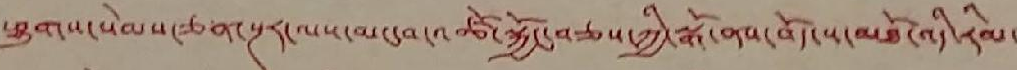ཕྱུགས་སེམས་ཅན་སྔར་ལས་མང་བ་འཚོ་སྐྱོང་བཅས་ཀྱི་སྒོ་ནས་བོད་ས་མཐོ་འདི་རིམ་
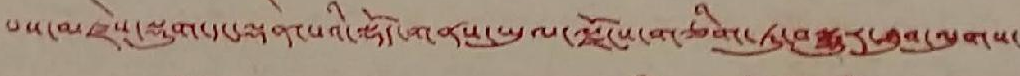པས་མཛེས་སྡུག་དང་ལྡན་པའི་སྡོད་གནས་ཡུལ་ལྗོངས་གཅིག་ཏུ་བསྒྱུར་ཐུབ་ལུགས་
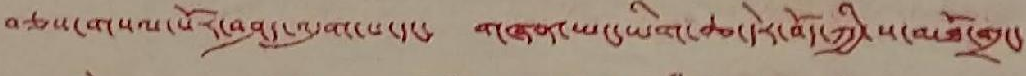བཅས་གསལ་པོར་བཤད་འདུག་པ་དང་ གཞན་ཡང་ཡིག་ཆ་དེར་བོད་ཀྱི་ས་མཐོ་གྲང་
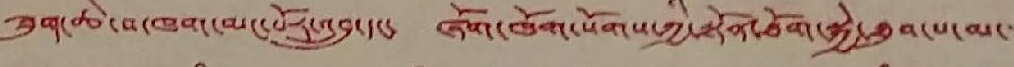ཟུག་ཆེ་བ་ཁག་མང་པོར་འབྲུ་དང་ ཞོག་ཁོག་སོགས་ཀྱི་སྟོན་ཐོག་སྐྱེ་ཐུབ་པ་མ་་་
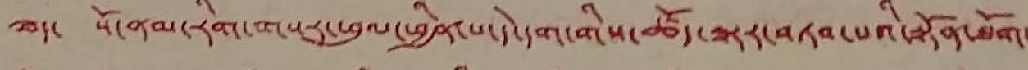ཟད་ སོ་ནམ་རིག་གསར་ཕུལ་ཕྱིན་པ་དེ་དག་གིས་ཚོད་ལྟར་བཏབ་པའི་སྟོན་ཐོག་
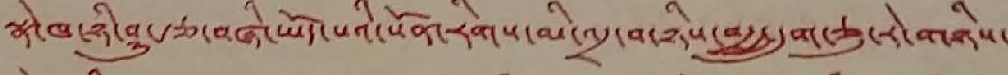སྣེ་ཁ་ཉི་ཤུ་རྩ་བཞི་ཡོད་པའི་སོན་རིགས་མི་འདྲ་བ་ཉིས་བརྒྱ་དྲུག་ཅུ་རེ་གཉིས་
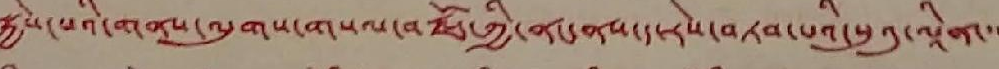སྐྱེས་པའི་གནས་ལུགས་གསལ་བརྗོད་ཀྱི་ནང་ནས་ད་རེས་བཏབ་པའི་སུའུ་ལཱིན་་་
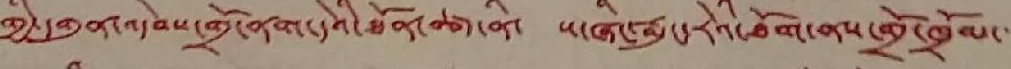གྱི་དགུན་འདེབས་གྲོ་ནག་དེའི་ཐོན་ཚད་ནི་ ས་ཞིང་རྨུང་རེའི་ཐོག་ནས་གྲོ་ཁྲོམ་་་
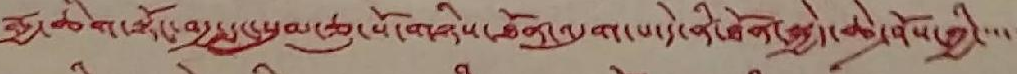རྒྱ་ཆིག་སྟོང་བརྒྱ་དང་སུམ་ཅུ་སོ་གཉིས་ཐོན་འདུག་པ་དེ་ནི་ཐོན་སྐྱེད་ཆེ་ཤོས་ཀྱི་་་་་
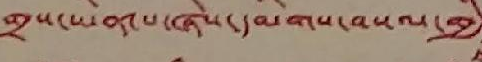གྲས་ཡིན་པ་ཞེས་དམིགས་བསལ་གྱི
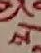ས
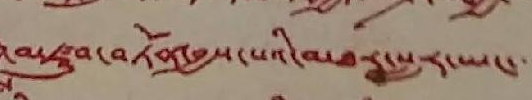་མཛུབ་བཏོན་བྱས་པའི་མཐར་སླར་ཡང་་་
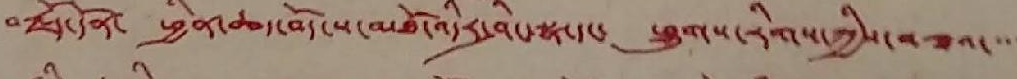བརཇོད་དོན་ ཕྱིན་ཆད་བོད་ས་མཐོ་འདིར་ཤིང་སྣ་དང་ ཕྱུགས་རིགས་ཀྱིས་བཟའ་་་་
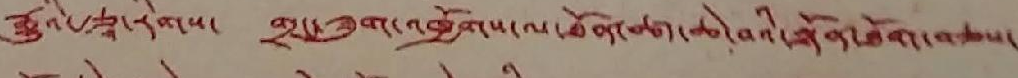རྒྱུའི་རྩཱ་རིགས་ གྲང་ཟུག་འཁྱོགས་ལ་ཐོན་ཚད་ཆེ་བའི་སྟོན་ཐོག་བཅས་
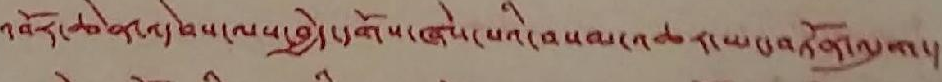འབོར་ཆེན་འདེབས་ལས་བྱེད་དགོས་ཞེས་པའི་བསམ་འཆར་ཡང་བཏོན་འདུག་།
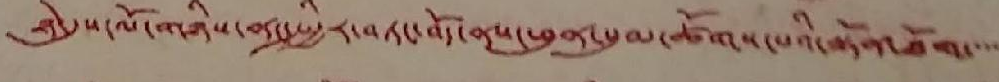ཉེ་དུས་ལོ་གཉིས་ནང་སྤྱིར་བཏང་བོད་ནས་ཕུན་སུམ་ཚོགས་པའི་སྟོན་ཐོག་་་་་
